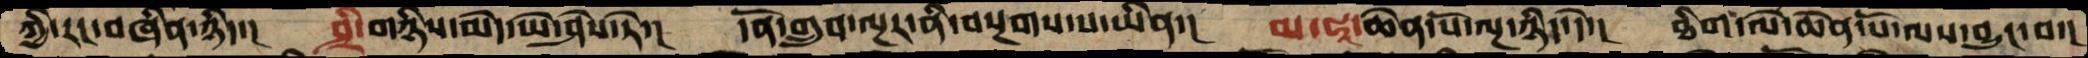ཀྱི་རང་བཞིན་ཉིད་།   ཤྲི་གཉིས་མེད་ཡེ་ཤེས་ཏེ་།  དོན་གྲུབ་ལྔར་ནི་བསྔགས་པ་ཡིན་།   མ་ཧཱ་ཆེན་པོ་ལྔ་ཉིད་དེ་།   ཐིག་ལེ་ཆེན་པོ་ལས་བྱུང་བ་།
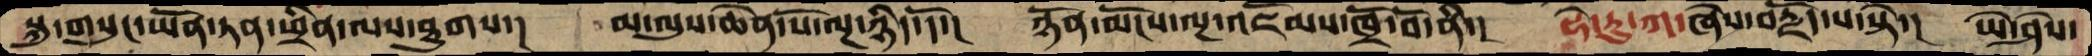སྐུ་གསུང་ཡོན་ཏན་ཕྲིན་ལས་ཐུགས་།   མ་ལུས་ཆེན་པོ་ལྔ་ཉིད་དོ་།  ཉོན་མོངས་ལྔ་འཇོམས་ཁྲོ་བོ་ནི་།  ཧེ་རུ་ཀ་ཞེས་བརྗོད་པ་སྟེ་།  ཡེ་ཤེས་
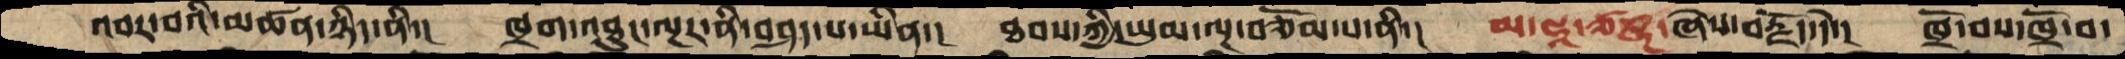འབར་བའི་མཚན་ཉིད་ནི་།  ཁྲག་འཐུང་ལྔར་ནི་བཤད་པ་ཡིན་།   ཐབས་ཀྱི་ཡུམ་ལྔ་བཅོམ་པ་ནི་།  མ་ཧཱ་ཙཎྜ་ཞེས་བརྗོད་དེ་།   ཁྲོ་བས་ཁྲོ་བ་
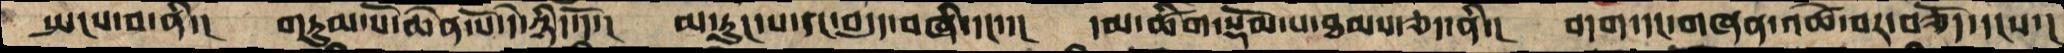སྤངས་བ་ནི་།  གཏུམ་པོ་ཆེན་པོ་དེ་ཉིད་དོ་།  མ་རུང་པ་དང་བདུད་བཞི་དང་་།  དམ་ཚིག་སྡོམ་པ་ཐམས་ཅད་ནི་།  བདག་དང་གཞན་འཚེ་བར་བཅོད་དངས་།
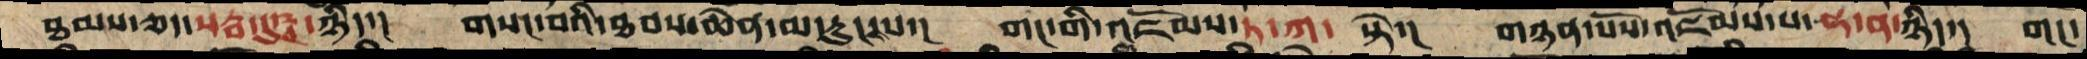ཐམས་ཅད་སརྦ་དུཥྚ་ཉིད་།   གསང་བའི་ཐབས་ཆེན་མ་རུང་པ་།  གང་གི་འཇོམས་ཏ་ཀ་ སྟེ་།  གཉན་པོས་འཇོམས་པ་ཧ་ན་ཉིད་།  གང་
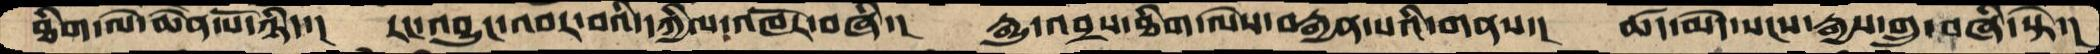ཐིག་ལེ་ཆེན་པོ་ཉིད་།   རང་འབྱུང་འབར་བའི་དཀྱིལ་འཁོར་བཞི་།  རྒྱུ་འབྲས་ཐིག་ལེས་བརྒྱན་པའི་གནས་།  ཚད་མེད་སངས་རྒྱས་གྲུ་བཞི་སྟེ་།
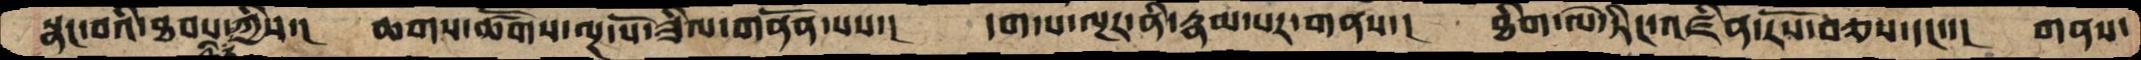སྣང་བའི་ཐབས་ཉིད་ཀྱིས་། ཆགས་ཚོགས་ལྔ་པོ་ཟིལ་གནོན་པས་། དག་པ་ལྔར་ནི་རྣམ་པར་གནས་། ཐིག་ལེ་ཏིང་འཛིན་རོས་བཅས་དང་་། གནས་
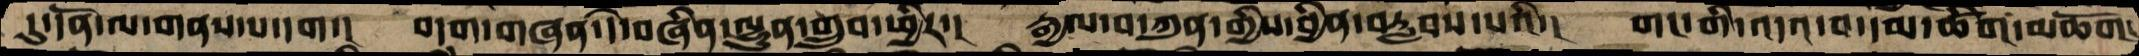དུ་དོན་ལ་གནས་པ་དག་།   བདག་གཞན་དེ་བཞིན་ལྷུན་གྲུབ་ཕྱིར་།  རྒྱལ་བ་ཀུན་གྱིས་བྱིན་བརླབས་པའི་།   གང་གི་འདའ་བ་དམ་ཚིག་མཆོག་
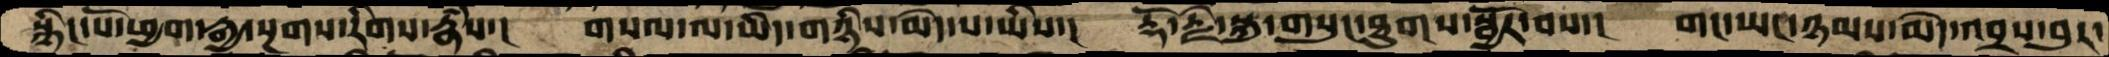སྙིང་པོ་ཕྱག་རྒྱ་སྔགས་རིགས་རྣཾས་།  གསལ་ལ་ཡིད་གཉིས་མེད་པ་ཡིས་།   རྡོ་རྗེ་སྐུ་གསུང་ཐུགས་སྦྱོར་བས་།   གང་ཡང་ཉམས་མེད་འབྲས་བུར་
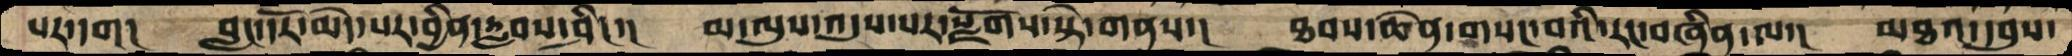པར་དག།    བླང་དོར་མེད་པར་བྱིན་རླབས་ཤིང་།   མ་ལུས་འདུས་པར་སྫོགས་སྟེ་གནས་།    ཐབས་ཆེན་གསང་བའི་རང་བཞིན་ལ་།   མཐའ་དབུས་
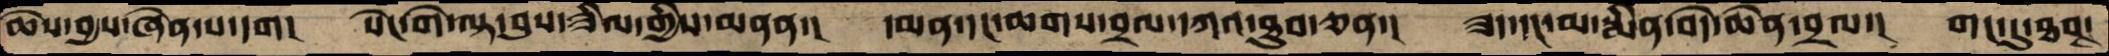ཆེས་བྱས་ཞེན་པ་དག། སེང་གེ་ལྟ་བུས་ཟིལ་གྱིས་མནན་། དམན་དང་ཆགས་བྲལ་དཀའ་ཐུབ་ཅན་། ཟད་དང་མ་སྨིན་བདེ་ཆེན་བྲལ་། གང་དུ་ཐབས་
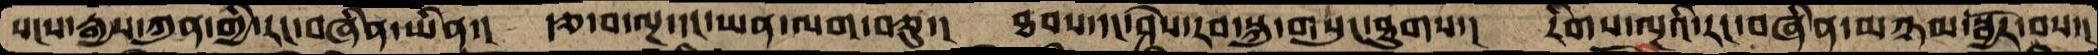སངས་རྒྱས་ཀུན་གྱི་རང་བཞིན་ཡིན་།  རྩ་བ་ལྔ་དང་ཡན་ལག་བཅུ་།  ཐབས་དང་ཤེས་རབ་སྐུ་གསུང་ཐུགས་།  རིགས་ལྔའི་རང་བཞིན་མཉམ་སྦྱོར་བས་།
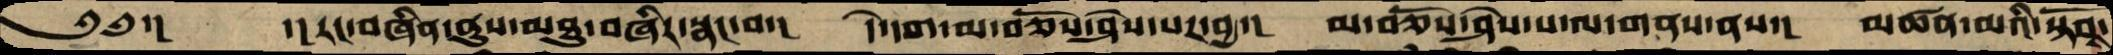༄༅་།   ་།རང་བཞིན་ནུས་མཐུ་བཞིར་སྣང་བ་། དེ་དག་མ་བཅོས་ཤེས་པར་བྱ་། མ་བཅོས་ཤེས་པ་ལ་གནས་ནས་། མཚན་མའི་སྟོབས་
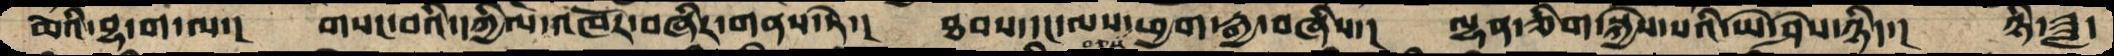ཆེའི་བྷ་ག་ལ་། གསང་བའི་དཀྱིལ་འཁོར་བཞིར་གནས་ཏེ་། ཐབས་དང་ལས་བཅས་ཕྱག་རྒྱ་བཞིས་། ལྷན་ཅིག་སྐྱེས་པའི་ཡེ་ཤེས་ཉིད་། ཉི་ཟླ་
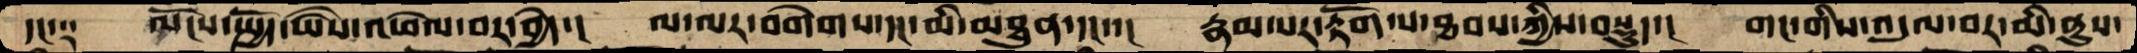དང་༑  ལོངས་སྤྱོད་ཡཻས་འཕེལ་བར་བྱེད་།  ལ་ལར་བགེགས་དང་མི་མཐུན་དང་།  རྣམ་པར་རྟོག་པ་ཐབས་ཀྱིས་བསྡུད་།  གང་གིས་འདུལ་བར་མི་ནུས་
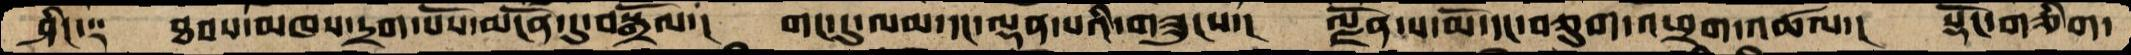ཤིང་༑   ཐབས་མཁས་དྲག་པོས་མངོན་དུ་བསྒྲོལ་།  གང་དུ་ལམ་དང་ལྡན་པའི་གཟུངས་།  ལྗོན་པ་མོ་དང་བཅུག་འཕྲག་འཚལ་།  སྡོང་གཅིག་
